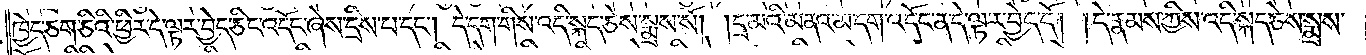ཁྱེད་ཅག་ཅིའི་ཕྱིར་དེ་ལྟར་བྱེད་ཅིང་འདོང་ཞེས་དྲིས་པ་དང༌། དེ་དག་གིས་འདི་སྐད་ཅེས་སྨྲས་སོ། །དྲ་མའི་མནའ་མ་དག་འདོང་ན་དེ་ལྟར་བྱེད་དོ། །དེ་རྣམས་ཀྱིས་འདི་སྐད་ཅེས་སྨྲས་
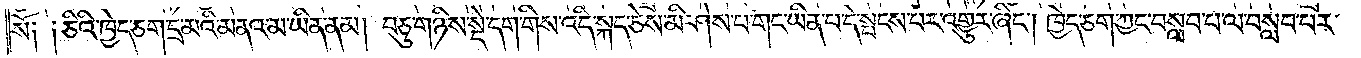སོ༑ ༑ཅིའི་ཁྱེད་ཅག་དྲ་མའི་མནའ་མ་ཡིན་ནམ། བཅུ་གཉིས་སྡེ་དག་གིས་འདི་སྐད་ཅེས་མི་ཤེས་པ་གང་ཡིན་པ་དེ་སྤངས་པར་འགྱུར་ཞིང༌། ཁྱེད་ཅག་ཀྱང་བསླབ་པ་ལ་བསླབ་པར་
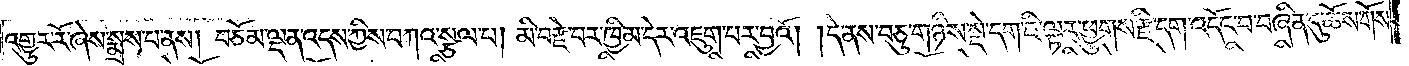འགྱུར་རོ་ཞེས་སྨྲས་པ་ནས། བཅོམ་ལྡན་འདས་ཀྱིས་བཀའ་སྩལ་པ། མི་བརྫེ་པར་ཁྱིམ་དེར་འཇུག་པར་བྱའོ། །དེ་ནས་བཅུ་གཉིས་སྡེ་དག་ཇི་ལྟར་ཕྱུགས་རྫི་དག་འདོང་བ་བཞིན་དུ་ཆོས་གོས་
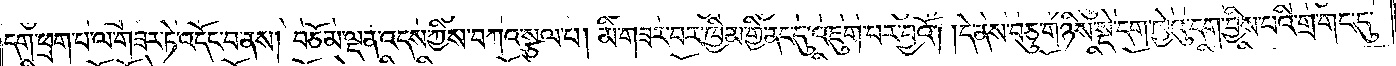དག་ཕྲག་པ་ལ་གཟར་ཏེ་འདོང་བ་ནས། བཅོམ་ལྡན་འདས་ཀྱིས་བཀའ་སྩལ་པ། མི་གཟར་བར་ཁྱིམ་གྱི་ནང་དུ་འཇུག་པར་བྱའོ། །དེ་ནས་བཅུ་གཉིས་སྡེ་དག་ཁྱེའུ་དག་བྱིས་པའི་གྲ་གང་དུ་
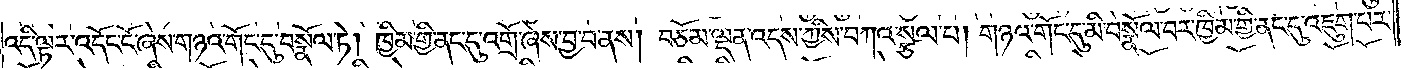འདི་ལྟར་འདོང་ངོ་ཞེས་གཉའ་གོང་དུ་བསྣོལ་ཏེ། ཁྱིམ་གྱི་ནང་དུ་འགྲོ་ཞེས་བྱ་བ་ནས། བཅོམ་ལྡན་འདས་ཀྱིས་བཀའ་སྩལ་པ། གཉའ་གོང་དུ་མི་བསྣོལ་བར་ཁྱིམ་གྱི་ནང་དུ་འཇུག་པར་
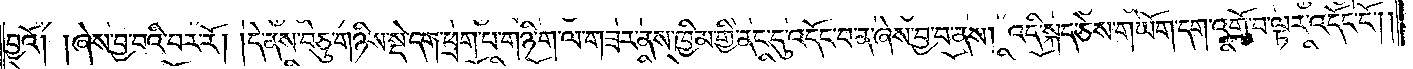བྱའོ། །ཞེས་བྱ་བའི་བར་རོ། །དེ་ནས་བཅུ་གཉིས་སྡེ་དག་ཕྲག་པ་གཉི་ག་ལ་གཟར་ནས་ཁྱིམ་གྱི་ནང་དུ་འདོང་བ་ན་ཞེས་བྱ་བ་ནས། འདི་སྐད་ཅེས་གཡོག་དག་འགྲོ་བ་ལྟར་འདོང་ངོ༌། །
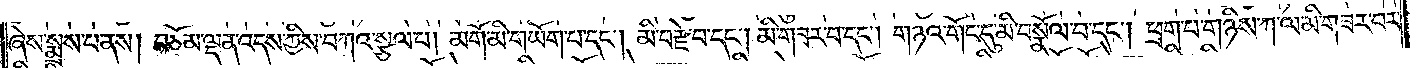ཞེས་སྨྲས་པ་ནས། བཅོམ་ལྡན་འདས་ཀྱིས་བཀའ་སྩལ་པ། མགོ་མི་གཡོག་པ་དང༌། མི་བརྫེ་བ་དང༌། མི་གཟར་བ་དང༌། གཉའ་གོང་དུ་མི་བསྣོལ་བ་དང༌། ཕྲག་པ་གཉིས་ཀ་ལ་མི་གཟར་བར་
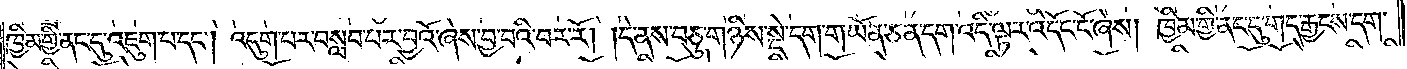ཁྱིམ་གྱི་ནང་དུ་འཇུག་པ་དང༌། འདུག་པར་བསླབ་པར་བྱའོ་ཞེས་བྱ་བའི་བར་རོ། །དེ་ནས་བཅུ་གཉིས་སྡེ་དག་གཡོན་ཅན་དག་འདི་ལྟར་འདོང་ངོ་ཞེས། ཁྱིམ་གྱི་ནང་དུ་གད་རྒྱངས་དག་
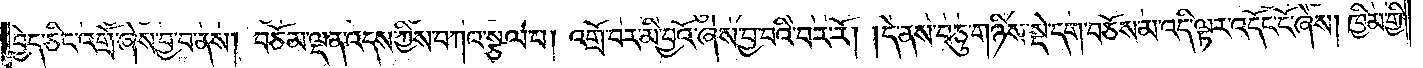བྱེད་ཅིང་འགྲོ་ཞེས་བྱ་བ་ནས། བཅོམ་ལྡན་འདས་ཀྱིས་བཀའ་སྩལ་པ། འགྲོ་བར་མི་བྱའོ་ཞེས་བྱ་བའི་བར་རོ། །དེ་ནས་བཅུ་གཉིས་སྡེ་དག་བཅོས་མ་འདི་ལྟར་འདོང་ངོ་ཞེས། ཁྱིམ་གྱི་
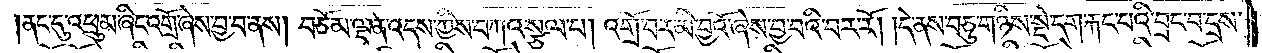།ནང་དུ་འཕྲུམ་ཞིང་འགྲོ་ཞེས་བྱ་བ་ནས། བཅོམ་ལྡན་འདས་ཀྱིས་བཀའ་སྩལ་པ། འགྲོ་བར་མི་བྱའོ་ཞེས་བྱ་བའི་བར་རོ། །དེ་ནས་བཅུ་གཉིས་སྡེ་དག་རྐང་པའི་བྲང་བ་དྲས་
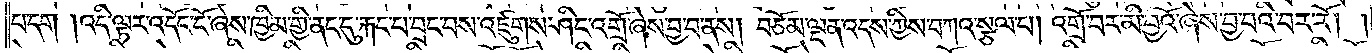པ་དག །འདི་ལྟར་འདོང་ངོ་ཞེས་ཁྱིམ་གྱི་ནང་དུ་རྐང་པ་བྲང་བས་འཛུགས་ཤིང་འགྲོ་ཞེས་བྱ་བ་ནས། བཅོམ་ལྡན་འདས་ཀྱིས་བཀའ་སྩལ་པ། འགྲོ་བར་མི་བྱའོ་ཞེས་བྱ་བའི་བར་རོ། །
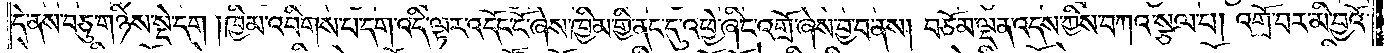དེ་ནས་བཅུ་གཉིས་སྡེ་དག །ཁྱིམ་འབིགས་པ་དག་འདི་ལྟར་འདོང་ངོ་ཞེས་ཁྱིམ་གྱི་ནང་དུ་འཕྱེ་ཞིང་འགྲོ་ཞེས་བྱ་བ་ནས། བཅོམ་ལྡན་འདས་ཀྱིས་བཀའ་སྩལ་པ། འགྲོ་བར་མི་བྱའོ་
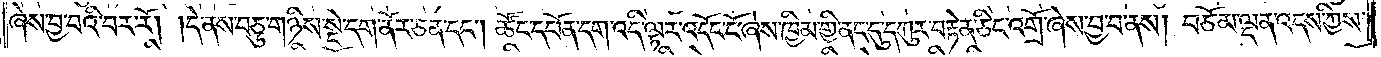ཞེས་བྱ་བའི་བར་རོ། །དེ་ནས་བཅུ་གཉིས་སྡེ་དག་ནོར་ཅན་དང༌། ཚོང་དཔོན་དག་འདི་ལྟར་འདོང་ངོ་ཞེས་ཁྱིམ་གྱི་ནང་དུ་དཀུར་བརྟེན་ཅིང་འགྲོ་ཞེས་བྱ་བ་ནས། བཅོམ་ལྡན་འདས་ཀྱིས་
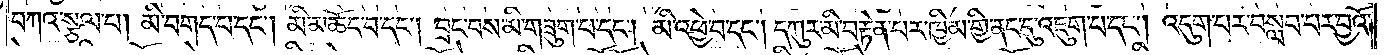བཀའ་སྩལ་པ། མི་བགད་པ་དང༌། མི་མཆོད་བ་དང༌། བྲང་བས་མི་གཟུག་པ་དང༌། མི་འཕྱེ་བ་དང༌། དཀུར་མི་བརྟེན་པར་ཁྱིམ་གྱི་ནང་དུ་འཇུག་པ་དང༌། འདུག་པར་བསླབ་པར་བྱའོ་
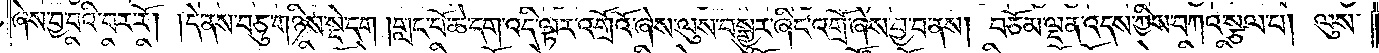ཞེས་བྱ་བའི་བར་རོ། །དེ་ནས་བཅུ་གཉིས་སྡེ་དག །གླང་པོ་ཆེ་དག་འདི་ལྟར་འགྲོའོ་ཞེས་ལུས་བསྒྱུར་ཞིང་འགྲོ་ཞེས་བྱ་བ་ནས། བཅོམ་ལྡན་འདས་ཀྱིས་བཀའ་སྩལ་པ། ལུས་
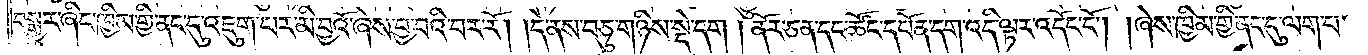བསྒྱུར་ཞིང་ཁྱིམ་གྱི་ནང་དུ་འཇུག་པར་མི་བྱའོ་ཞེས་བྱ་བའི་བར་རོ། །དེ་ནས་བཅུ་གཉིས་སྡེ་དག །ནོར་ཅན་དང་ཚོང་དཔོན་དག་འདི་ལྟར་འདོང་ངོ༌། །ཞེས་ཁྱིམ་གྱི་ནང་དུ་ལག་པ་
